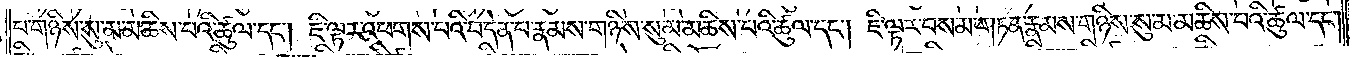པ་གཉིས་སུ་མ་མཆིས་པའི་ཚུལ་དང༌། ཇི་ལྟར་འཕགས་པའི་བདེན་པ་རྣམས་གཉིས་སུ་མ་མཆིས་པའི་ཚུལ་དང༌། ཇི་ལྟར་མངོན་པར་ཤེས་པ་རྣམས་གཉིས་སུ་མ་མཆིས་པའི་ཚུལ་དང༌།
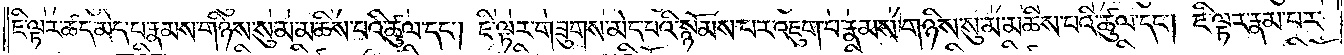ཇི་ལྟར་ཚད་མེད་པ་རྣམས་གཉིས་སུ་མ་མཆིས་པའི་ཚུལ་དང༌། ཇི་ལྟར་གཟུགས་མེད་པའི་སྙོམས་པར་འཇུག་པ་རྣམས་གཉིས་སུ་མ་མཆིས་པའི་ཚུལ་དང༌། ཇི་ལྟར་རྣམ་པར་
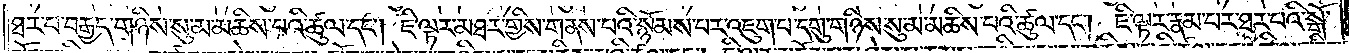ཐར་པ་བརྒྱད་གཉིས་སུ་མ་མཆིས་པའི་ཚུལ་དང༌། ཇི་ལྟར་མཐར་གྱིས་གནས་པའི་སྙོམས་པར་འཇུག་པ་དགུ་གཉིས་སུ་མ་མཆིས་པའི་ཚུལ་དང༌། ཇི་ལྟར་རྣམ་པར་ཐར་པའི་སྒོ་
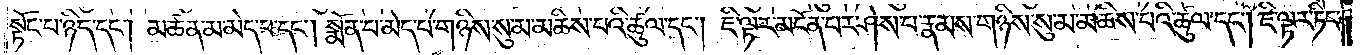སྟོང་པ་ཉིད་དང༌། མཚན་མ་མེད་པ་དང༌། སྨོན་པ་མེད་པ་གཉིས་སུ་མ་མཆིས་པའི་ཚུལ་དང༌། ཇི་ལྟར་མངོན་པར་ཤེས་པ་རྣམས་གཉིས་སུ་མ་མཆིས་པའི་ཚུལ་དང༌། ཇི་ལྟར་ཏིང་
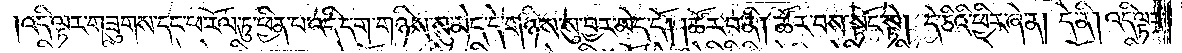འདི་ལྟར་གཟུགས་དང་ཕ་རོལ་ཏུ་ཕྱིན་པ་འདི་དག་གཉིས་སུ་མེད་དེ་གཉིས་སུ་བྱར་མེད་དོ། །ཚོར་བ་ནི། ཚོར་བས་སྟོང་སྟེ། དེ་ཅིའི་ཕྱིར་ཞེ་ན། དེ་ནི། འདི་ལྟར་
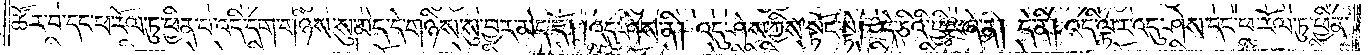ཚོར་བ་དང་ཕ་རོལ་ཏུ་ཕྱིན་པ་འདི་དག་གཉིས་སུ་མེད་དེ་གཉིས་སུ་བྱར་མེད་དོ། །འདུ་ཤེས་ནི། འདུ་ཤེས་ཀྱིས་སྟོང་སྟེ། དེ་ཅིའི་ཕྱིར་ཞེ་ན། དེ་ནི། འདི་ལྟར་འདུ་ཤེས་དང་ཕ་རོལ་ཏུ་ཕྱིན་
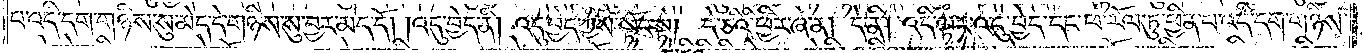པ་འདི་དག་གཉིས་སུ་མེད་དེ་གཉིས་སུ་བྱར་མེད་དོ། །འདུ་བྱེད་ནི། འདུ་བྱེད་ཀྱིས་སྟོང་སྟེ། དེ་ཅིའི་ཕྱིར་ཞེ་ན། དེ་ནི། འདི་ལྟར་འདུ་བྱེད་དང་ཕ་རོལ་ཏུ་ཕྱིན་པ་འདི་དག་གཉིས་
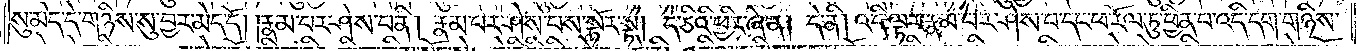སུ་མེད་དེ་གཉིས་སུ་བྱར་མེད་དོ། །རྣམ་པར་ཤེས་པ་ནི། རྣམ་པར་ཤེས་པས་སྟོང་སྟེ། དེ་ཅིའི་ཕྱིར་ཞེ་ན། དེ་ནི། འདི་ལྟར་རྣམ་པར་ཤེས་པ་དང་ཕ་རོལ་ཏུ་ཕྱིན་པ་འདི་དག་གཉིས་
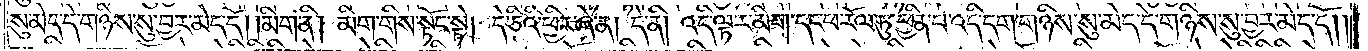སུ་མེད་དེ་གཉིས་སུ་བྱར་མེད་དོ། །མིག་ནི། མིག་གིས་སྟོང་སྟེ། དེ་ཅིའི་ཕྱིར་ཞེ་ན། དེ་ནི། འདི་ལྟར་མིག་དང་ཕ་རོལ་ཏུ་ཕྱིན་པ་འདི་དག་གཉིས་སུ་མེད་དེ་གཉིས་སུ་བྱར་མེད་དོ། །
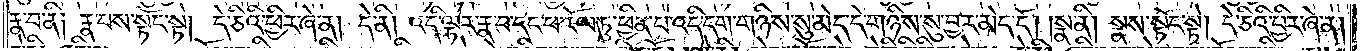རྣ་བ་ནི། རྣ་བས་སྟོང་སྟེ། དེ་ཅིའི་ཕྱིར་ཞེ་ན། དེ་ནི། འདི་ལྟར་རྣ་བ་དང་ཕ་རོལ་ཏུ་ཕྱིན་པ་འདི་དག་གཉིས་སུ་མེད་དེ་གཉིས་སུ་བྱར་མེད་དོ། །སྣ་ནི། སྣས་སྟོང་སྟེ། དེ་ཅིའི་ཕྱིར་ཞེ་ན།
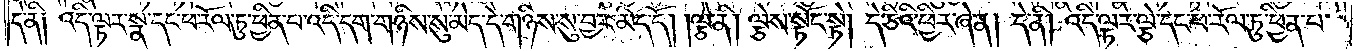དེ་ནི། འདི་ལྟར་སྣ་དང་ཕ་རོལ་ཏུ་ཕྱིན་པའི་དེ་དག་གཉིས་སུ་མེད་དེ་གཉིས་སུ་བྱར་མེད་དོ། །ལྕེ་ནི། ལྕེས་སྟོང་སྟེ། དེ་ཅིའི་ཕྱིར་ཞེ་ན། དེ་ནི། འདི་ལྟར་ལྕེ་དང་ཕ་རོལ་ཏུ་ཕྱིན་པ་
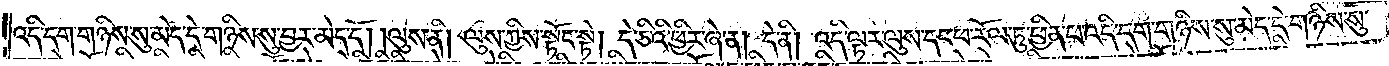འདི་དག་གཉིས་སུ་མེད་དེ་གཉིས་སུ་བྱར་མེད་དོ། །ལུས་ནི། ལུས་ཀྱིས་སྟོང་སྟེ། དེ་ཅིའི་ཕྱིར་ཞེ་ན། དེ་ནི། འདི་ལྟར་ལུས་དང་ཕ་རོལ་ཏུ་ཕྱིན་པ་འདི་དག་གཉིས་སུ་མེད་དེ་གཉིས་སུ་
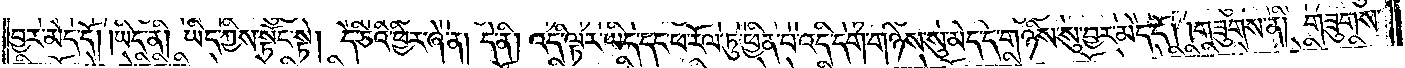བྱར་མེད་དོ། །ཡིད་ནི། ཡིད་ཀྱིས་སྟོང་སྟེ། དེ་ཅིའི་ཕྱིར་ཞེ་ན། དེ་ནི། འདི་ལྟར་ཡིད་དང་ཕ་རོལ་ཏུ་ཕྱིན་པ་འདི་དག་གཉིས་སུ་མེད་དེ་གཉིས་སུ་བྱར་མེད་དོ། །གཟུགས་ནི། གཟུགས་
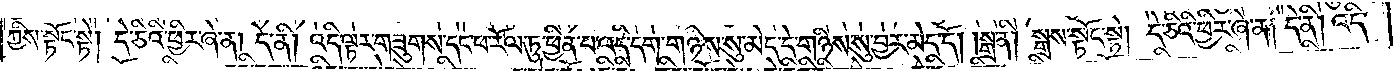ཀྱིས་སྟོང་སྟེ། དེ་ཅིའི་ཕྱིར་ཞེ་ན། དེ་ནི། འདི་ལྟར་གཟུགས་དང་ཕ་རོལ་ཏུ་ཕྱིན་པ་འདི་དག་གཉིས་སུ་མེད་དེ་གཉིས་སུ་བྱར་མེད་དོ། །སྒྲ་ནི། སྒྲས་སྟོང་སྟེ། དེ་ཅིའི་ཕྱིར་ཞེ་ན། དེ་ནི། འདི་
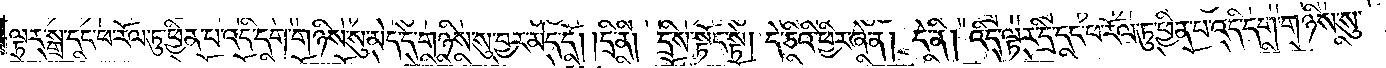ལྟར་སྒྲ་དང་ཕ་རོལ་ཏུ་ཕྱིན་པ་འདི་དག་གཉིས་སུ་མེད་དེ་གཉིས་སུ་བྱར་མེད་དོ། །དྲི་ནི། དྲིས་སྟོང་སྟེ། དེ་ཅིའི་ཕྱིར་ཞེ་ན། དེ་ནི། འདི་ལྟར་དྲི་དང་ཕ་རོལ་ཏུ་ཕྱིན་པ་འདི་དག་གཉིས་སུ་
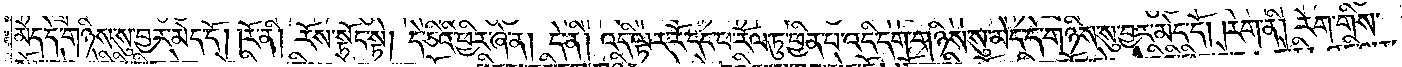མེད་དེ་གཉིས་སུ་བྱར་མེད་དོ། །རོ་ནི། རོས་སྟོང་སྟེ། དེ་ཅིའི་ཕྱིར་ཞེ་ན། དེ་ནི། འདི་ལྟར་རོ་དང་ཕ་རོལ་ཏུ་ཕྱིན་པ་འདི་དག་གཉིས་སུ་མེད་དེ་གཉིས་སུ་བྱར་མེད་དོ། །རེག་ནི། རེག་གིས་
